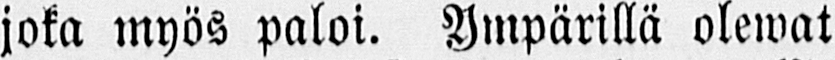joka myös paloi. Ympärillä olewat
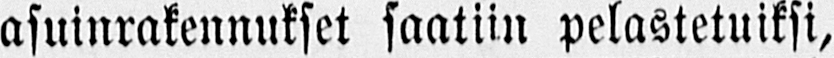asuinrakennukset saatiin pelastetuiksi,
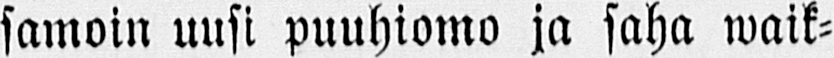samoin uusi puuhiomo ja saha waik-
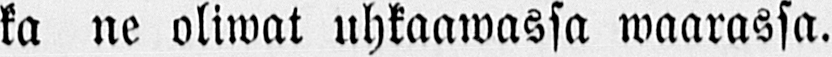ka ne oliwat uhkaawassa waarassa.
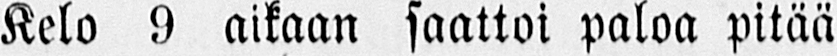Kelo 9 aikaan saattoi paloa pitää
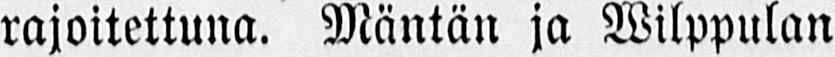rajoitettuna. Mäntän ja Wilppulan
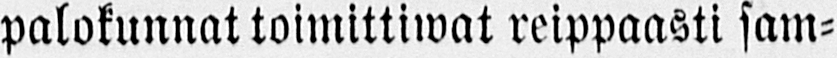palokunnat toimittiwat reippaasti sam-
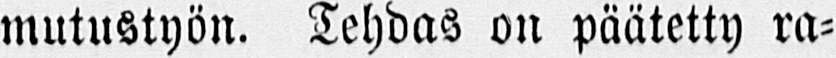mutustyön. Tehdas on päätetty ra-
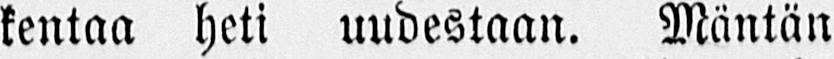kentaa heti uudestaan. Mäntän
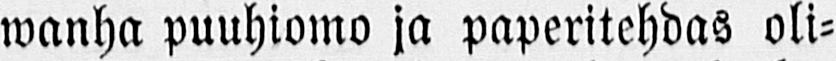wanha puuhiomo ja paperitehdas oli-
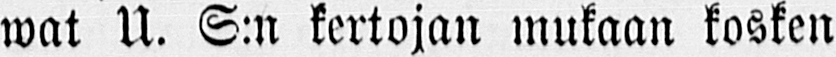wat U. S:n kertojan mukaan kosken
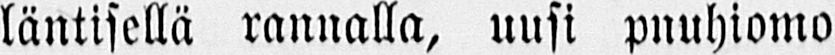läntisellä rannalla, uusi puuhiomo
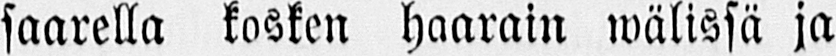saarella kosken haarain wälissä ja
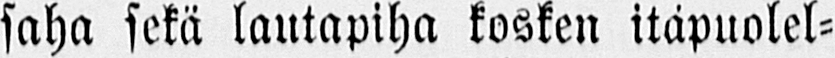saha sekä lautapiha kosken itäpuolel-
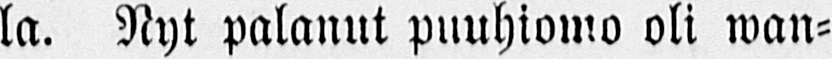la. Nyt palanut puuhiomo oli wan-
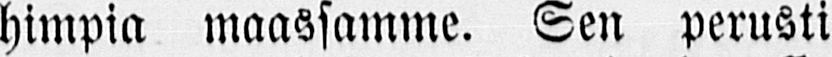himpia maassamme. Sen perusti
